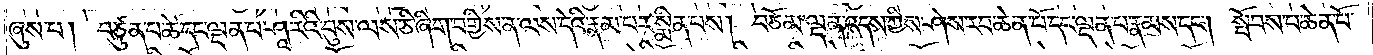ཞུས་པ། བཙུན་པ་ཚེ་དང་ལྡན་པ་ཤཱ་རིའི་བུས་ལས་ཅི་ཞིག་བགྱིས་ན་ལས་དེའི་རྣམ་པར་སྨིན་པས། བཅོམ་ལྡན་འདས་ཀྱིས་ཤེས་རབ་ཆེན་པོ་དང་ལྡན་པ་རྣམས་དང༌། སྤོབས་པ་ཆེན་པོ་
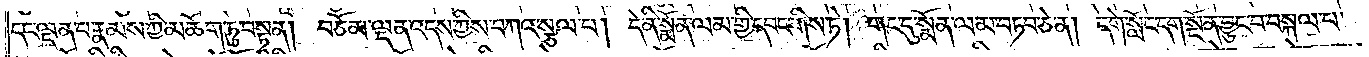དང་ལྡན་པ་རྣམས་ཀྱི་མཆོག་ཏུ་བསྟན། བཅོམ་ལྡན་འདས་ཀྱིས་བཀའ་སྩལ་བ། དེ་ནི་སྨོན་ལམ་གྱི་དབང་གིས་ཏེ། གང་དུ་སྨོན་ལམ་བཏབ་ཅེ་ན། དགེ་སློང་དག་སྔོན་བྱུང་བ་བསྐལ་པ་
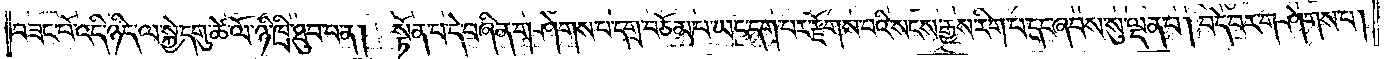བཟང་པོ་འདི་ཉིད་ལ་སྐྱེ་དགུ་ཚེ་ལོ་ཉི་ཁྲི་ཐུབ་པ་ན། སྟོན་པ་དེ་བཞིན་གཤེགས་པ་དགྲ་བཅོམ་པ་ཡང་དག་པར་རྫོགས་པའི་སངས་རྒྱས་རིག་པ་དང་ཞབས་སུ་ལྡན་པ། བདེ་བར་གཤེགས་པ།
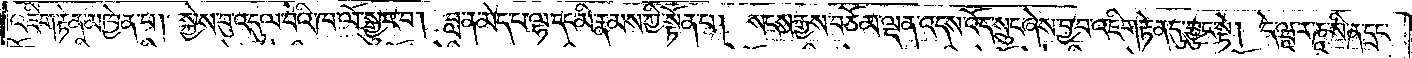འཇིག་རྟེན་མཁྱེན་པ། སྐྱེས་བུ་འདུལ་བའི་ཁ་ལོ་སྒྱུར་བ། བླ་ན་མེད་པ་ལྷ་དང་མི་རྣམས་ཀྱི་སྟོན་པ། སངས་རྒྱས་བཅོམ་ལྡན་འདས་འོད་སྲུང་ཞེས་བྱ་བ་འཇིག་རྟེན་དུ་བྱུང་སྟེ། དེ་ཝཱ་ར་ཎཱ་སི་ན་དྲང་
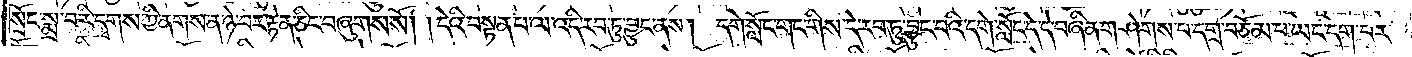སྲོང་སྨྲ་བ་རི་དྭགས་ཀྱི་ནགས་ན་ཉེ་བར་རྟེན་ཅིང་བཞུགས་སོ། །དེའི་བསྟན་པ་ལ་འདི་རབ་ཏུ་བྱུང་ནས། དགེ་སློང་གང་གིས་དེ་རབ་ཏུ་བྱུང་བའི་དགེ་སློང་དེ་དེ་བཞིན་གཤེགས་པ་དགྲ་བཅོམ་པ་ཡང་དག་པར་
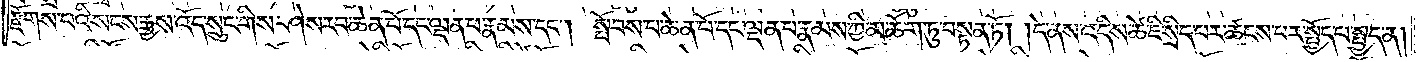རྫོགས་པའི་སངས་རྒྱས་འོད་སྲུང་གིས་ཤེས་རབ་ཆེན་པོ་དང་ལྡན་པ་རྣམས་དང༌། སྤོབས་པ་ཆེན་པོ་དང་ལྡན་པ་རྣམས་ཀྱི་མཆོག་ཏུ་བསྟན་ཏོ། །དེ་ནས་འདིས་ཚེ་ཇི་སྲིད་པར་ཚངས་པར་སྤྱོད་པ་སྤྱད་ན།
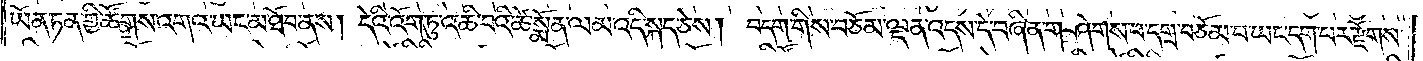ཡོན་ཏན་གྱི་ཚོགས་འགའ་ཡང་མ་ཐོབ་ནས། དེའི་འོག་ཏུ་འཆི་བའི་ཚེ་སྨོན་ལམ་འདི་སྐད་ཅེས། བདག་གིས་བཅོམ་ལྡན་འདས་དེ་བཞིན་གཤེགས་པ་དགྲ་བཅོམ་པ་ཡང་དག་པར་རྫོགས་
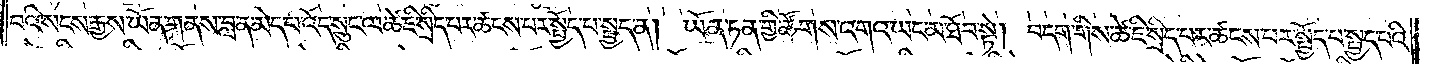བའི་སངས་རྒྱས་ཡོན་གནས་བླ་ན་མེད་པ་འོད་སྲུང་ལ་ཚེ་ཇི་སྲིད་པར་ཚངས་པར་སྤྱོད་པ་སྤྱད་ན། ཡོན་ཏན་གྱི་ཚོགས་འགའ་ཡང་མ་ཐོབ་སྟེ། བདག་གིས་ཚེ་ཇི་སྲིད་པར་ཚངས་པར་སྤྱོད་པ་སྤྱད་པའི་
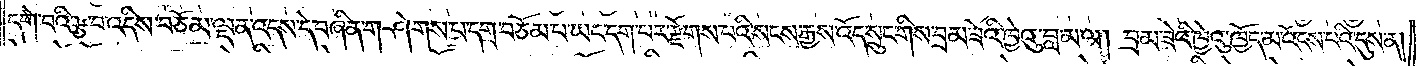དགེ་བའི་རྩ་བ་འདིས་བཅོམ་ལྡན་འདས་དེ་བཞིན་གཤེགས་པ་དགྲ་བཅོམ་པ་ཡང་དག་པར་རྫོགས་པའི་སངས་རྒྱས་འོད་སྲུང་གིས་བྲམ་ཟེའི་ཁྱེའུ་བླ་མ་ལ། བྲམ་ཟེའི་ཁྱེའུ་ཁྱོད་མ་འོངས་པའི་དུས་ན།
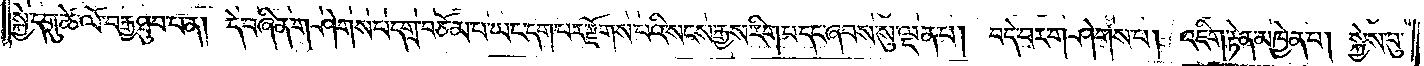སྐྱེ་དགུ་ཚེ་ལོ་བརྒྱ་ཐུབ་པ་ན། དེ་བཞིན་གཤེགས་པ་དགྲ་བཅོམ་པ་ཡང་དག་པར་རྫོགས་པའི་སངས་རྒྱས་རིག་པ་དང་ཞབས་སུ་ལྡན་པ། བདེ་བར་གཤེགས་པ། འཇིག་རྟེན་མཁྱེན་པ། སྐྱེས་བུ་
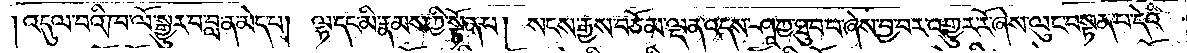འདུལ་བའི་ཁ་ལོ་སྒྱུར་བ་བླ་ན་མེད་པ། ལྷ་དང་མི་རྣམས་ཀྱི་སྟོན་པ། སངས་རྒྱས་བཅོམ་ལྡན་འདས་ཤཱཀྱ་ཐུབ་པ་ཞེས་བྱ་བར་འགྱུར་རོ་ཞེས་ལུང་བསྟན་པ་དེའི་
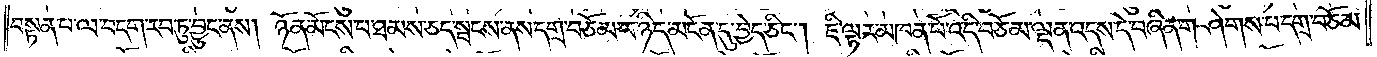བསྟན་པ་ལ་བདག་རབ་ཏུ་བྱུང་ནས། ཉོན་མོངས་པ་ཐམས་ཅད་སྤངས་ནས་དགྲ་བཅོམ་པ་ཉིད་མངོན་དུ་བྱེད་ཅིང༌། ཇི་ལྟར་མཁན་པོ་འདི་བཅོམ་ལྡན་འདས་དེ་བཞིན་གཤེགས་པ་དགྲ་བཅོམ་
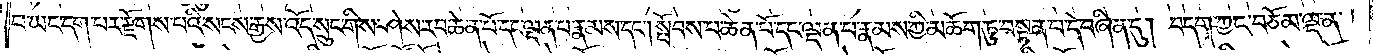པ་ཡང་དག་པར་རྫོགས་པའི་སངས་རྒྱས་འོད་སྲུང་གིས་ཤེས་རབ་ཆེན་པོ་དང་ལྡན་པ་རྣམས་དང༌། སྤོབས་པ་ཆེན་པོ་དང་ལྡན་པ་རྣམས་ཀྱི་མཆོག་ཏུ་བསྟན་པ་དེ་བཞིན་དུ། བདག་ཀྱང་བཅོམ་ལྡན་
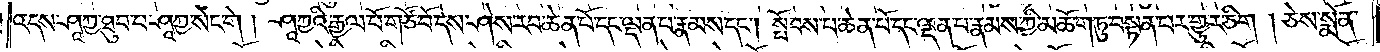འདས་ཤཱཀྱ་ཐུབ་པ་ཤཱཀྱ་སེང་གེ། ཤཱཀྱའི་རྒྱལ་པོ་གཙོ་བོ་དེས་ཤེས་རབ་ཆེན་པོ་དང་ལྡན་པ་རྣམས་དང༌། སྤོབས་པ་ཆེན་པོ་དང་ལྡན་པ་རྣམས་ཀྱི་མཆོག་ཏུ་བསྟན་པར་གྱུར་ཅིག །ཅེས་སྨོན་
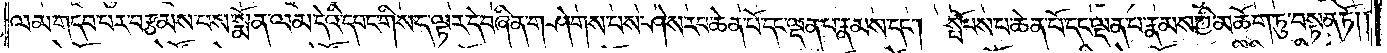ལམ་གདབ་པར་བརྩམས་པས་སྨོན་ལམ་དེའི་དབང་གིས་ད་ལྟར་དེ་བཞིན་གཤེགས་པས་ཤེས་རབ་ཆེན་པོ་དང་ལྡན་པ་རྣམས་དང༌། སྤོབས་པ་ཆེན་པོ་དང་ལྡན་པ་རྣམས་ཀྱི་མཆོག་ཏུ་བསྟན་ཏོ། །
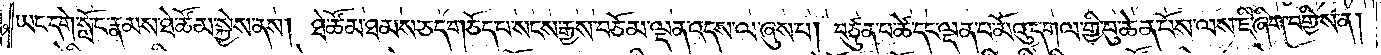ཡང་དགེ་སློང་རྣམས་ཐེ་ཚོམ་སྐྱེས་ནས། ཐེ་ཚོམ་ཐམས་ཅད་གཅོད་པ་སངས་རྒྱས་བཅོམ་ལྡན་འདས་ལ་ཞུས་པ། བཙུན་པ་ཚེ་དང་ལྡན་པ་མོའུ་དགལ་གྱི་བུ་ཆེན་པོས་ལས་ཇི་ཞིག་བགྱིས་ན།
